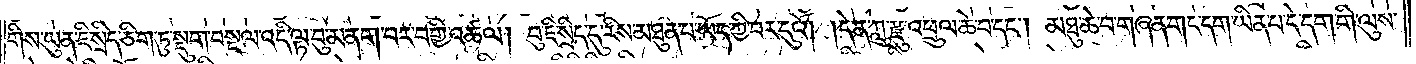གིས་ཡུན་ཇི་སྲིད་ཅིག་ཏུ་སྡུག་བསྔལ་འདི་ལྟ་བུ་མནག་པར་བགྱི་འཚལ། བུ་ཇི་སྲིད་དུ་རིས་མཐུན་པ་ཡོད་ཀྱི་བར་དུའོ། །དེ་ན་ཀླུ་རྫུ་འཕྲུལ་ཆེ་བ་དང༌། མཐུ་ཆེ་བ་གཞན་གང་དག་ཡིན་པ་དེ་དག་གི་ལུས་
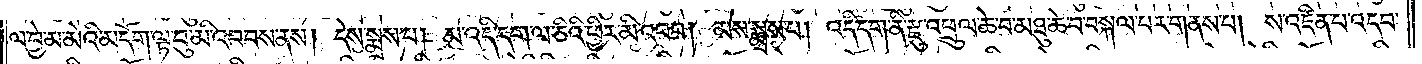ལ་བྱེ་མ་མེའི་མདོག་ལྟ་བུ་མི་འབབས་ནས། དེས་སྨྲས་པ། མ་འདི་དག་ལ་ཅིའི་ཕྱིར་མི་འབབ། མས་སྨྲས་པ། འདི་དག་ནི་རྫུ་འཕྲུལ་ཆེ་བ་མཐུ་ཆེ་བ་བསྐལ་པར་གནས་པ། ས་འཛིན་པ་འདབ་
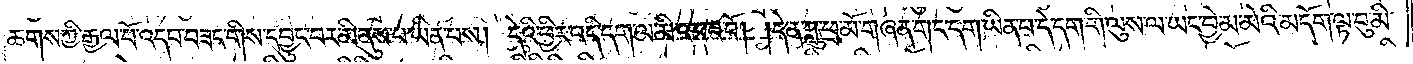ཆགས་ཀྱི་རྒྱལ་པོ་འདབ་བཟང་གིས་དབྱུང་བར་མི་ནུས་པ་ཡིན་པས། དེའི་ཕྱིར་འདི་དག་ལ་མི་འབབ་བོ། །དེ་ན་ཀླུ་ཕྲ་མོ་གཞན་གང་དག་ཡིན་པ་དེ་དག་གི་ལུས་ལ་ཡང་བྱེ་མ་མེའི་མདོག་ལྟ་བུ་མི་
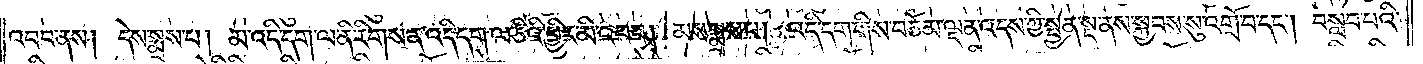འབབ་ནས། དེས་སྨྲས་པ། མ་འདི་དག་ལ་ནི་རིགས་ན་འདི་དག་ལ་ཅིའི་ཕྱིར་མི་འབབ། མས་སྨྲས་པ། འདི་དག་གིས་བཅོམ་ལྡན་འདས་ཀྱི་སྤྱན་སྔ་ནས་སྐྱབས་སུ་འགྲོ་བ་དང༌། བསླབ་པའི་
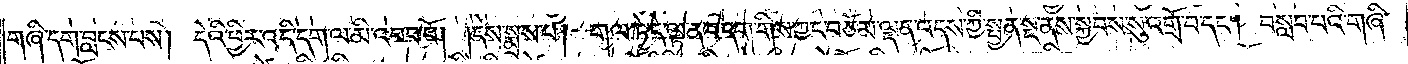གཞི་དག་བླངས་པས། དེའི་ཕྱིར་འདི་དག་ལ་མི་འབབ་བོ། །དེས་སྨྲས་པ། གལ་ཏེ་དེ་ལྟ་ན་བདག་གིས་ཀྱང་བཅོམ་ལྡན་འདས་ཀྱི་སྤྱན་སྔ་ནས་སྐྱབས་སུ་འགྲོ་བ་དང༌། བསླབ་པའི་གཞི་
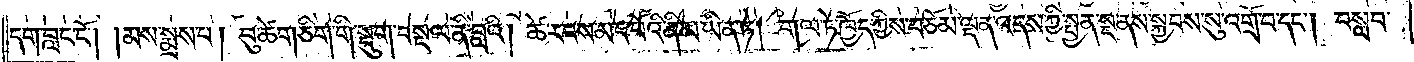དག་བླང་ངོ༌། །མས་སྨྲས་པ། བུ་ཚེ་གཅིག་གི་སྡུག་བསྔལ་ནི་བླའི། ཚེ་རབས་མང་པོའི་ནི་མ་ཡིན་ཏེ། གལ་ཏེ་ཁྱོད་ཀྱིས་བཅོམ་ལྡན་འདས་ཀྱི་སྤྱན་སྔ་ནས་སྐྱབས་སུ་འགྲོ་བ་དང༌། བསླབ་
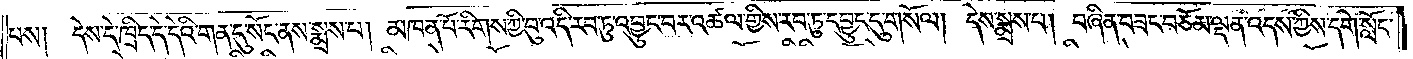པས། དེས་དེ་ཁྲིད་དེ་དེའི་གན་དུ་སོང་ནས་སྨྲས་པ། མཁན་པོ་རིགས་ཀྱི་བུ་འདི་རབ་ཏུ་འབྱུང་བར་འཚལ་གྱིས་རབ་ཏུ་དབྱུང་དུ་གསོལ། དེས་སྨྲས་པ། བཞིན་བཟང་བཅོམ་ལྡན་འདས་ཀྱིས་དགེ་སློང་
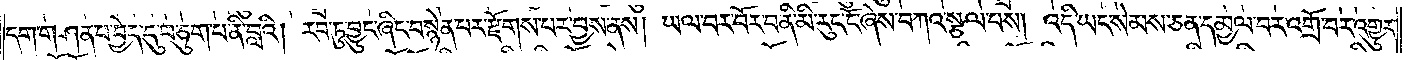དག་གཤན་པ་བྱེད་དུ་བཅུག་པ་ནི་བླའི། རབ་ཏུ་བྱུང་ཞིང་བསྙེན་པར་རྫོགས་པར་བྱས་ནས། ཡལ་བར་བོར་བ་ནི་མི་རུང་ངོ་ཞེས་བཀའ་སྩལ་པས། འདི་ཡང་སེམས་ཅན་དམྱལ་བར་འགྲོ་བར་འགྱུར་
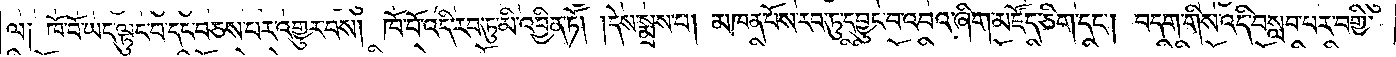ལ༑ ཁོ་བོ་ཡང་ལྟུང་བ་དང་བཅས་པར་འགྱུར་བས། ཁོ་བོ་འདི་རབ་ཏུ་མི་འབྱིན་ཏོ། །དེས་སྨྲས་པ། མཁན་པོས་རབ་ཏུ་དབྱུང་བ་འབའ་ཞིག་མཛོད་ཅིག་དང༌། བདག་གིས་འདི་བསླབ་པར་བགྱི་
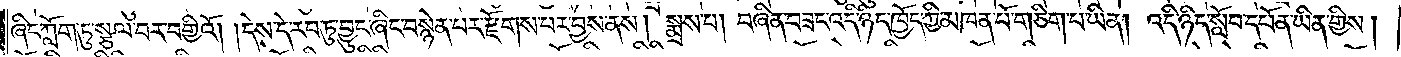ཞིང་ཀློག་ཏུ་སྩལ་བར་བགྱིའོ། །དེས་དེ་རབ་ཏུ་བྱུང་ཞིང་བསྙེན་པར་རྫོགས་པར་བྱས་ནས། སྨྲས་པ། བཞིན་བཟང་འདི་ཉིད་ཁྱོད་ཀྱི་མཁན་པོ་གཅིག་པ་ཡིན། འདི་ཉིད་སློབ་དཔོན་ཡིན་གྱིས།
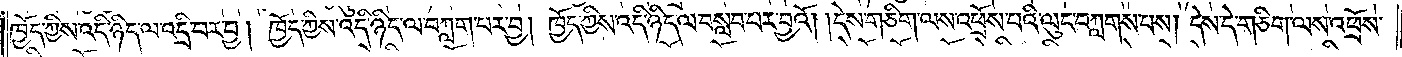ཁྱོད་ཀྱིས་འདི་ཉིད་ལ་འདྲི་བར་བྱ། ཁྱོད་ཀྱིས་འདི་ཉིད་ལ་བཀླག་པར་བྱ། ཁྱོད་ཀྱིས་འདི་ཉིད་ལ་བསླབ་པར་བྱའོ། །དེས་གཅིག་ལས་འཕྲོས་པའི་ལུང་བཀླགས་པས། དེས་དེ་གཅིག་ལས་འཕྲོས་
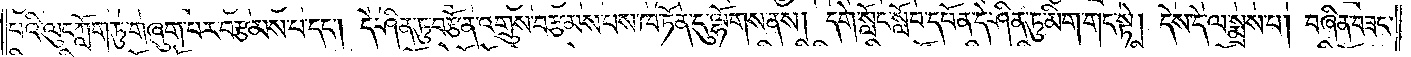པའི་ལུང་ཀློག་ཏུ་གཞུག་པར་བརྩམས་པ་དང༌། དེ་ཤིན་ཏུ་བརྩོན་འགྲུས་བརྩམས་པས་ཁ་ཏོན་དུ་ལྷོགས་ནས། དགེ་སློང་སློབ་དཔོན་དེ་ཤིན་ཏུ་མིག་གང་སྟེ། དེས་དེ་ལ་སྨྲས་པ། བཞིན་བཟང་
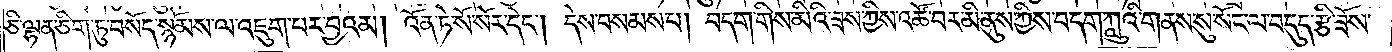ཅི་ལྷན་ཅིག་ཏུ་བསོད་སྙོམས་ལ་འཇུག་པར་བྱའམ། འོན་ཏེ་སོ་སོར་དེང༌། དེས་བསམས་པ། བདག་གིས་མིའི་ཟས་ཀྱིས་འཚོ་བར་མི་ནུས་ཀྱིས་བདག་ཀླུའི་གནས་སུ་སོང་ལ་བདུད་རྩི་ཟོས་
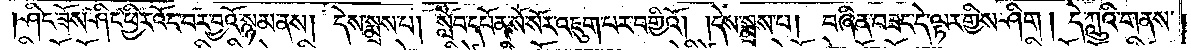ཤིང་ཟོས་ཤིང་ཕྱིར་འོང་བར་བྱའོ་སྙམ་ནས། དེས་སྨྲས་པ། སློབ་དཔོན་སོ་སོར་འཇུག་པར་བགྱིའོ། །དེས་སྨྲས་པ། བཞིན་བཟང་དེ་ལྟར་གྱིས་ཤིག ། དེ་ཀླུའི་གནས་
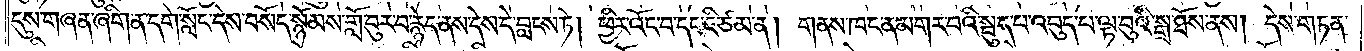དུས་གཞན་ཞིག་ན་དགེ་སློང་དེས་བསོད་སྙོམས་གློ་བུར་བ་རྙེད་ནས་དེས་དེ་བླངས་ཏེ། ཕྱིར་འོང་བ་དང་ཇི་ཙམ་ན། གནས་ཁང་ན་མགར་བའི་སྦུད་པ་འབུད་པ་ལྟ་བུའི་སྒྲ་ཐོས་ནས། དེས་གཏན་
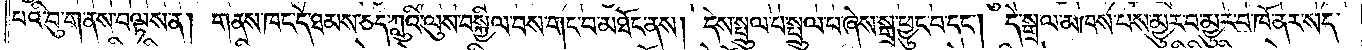པའི་བུ་གནས་བལྟས་ན། གནས་ཁང་དེ་ཐམས་ཅད་ཀླུའི་ལུས་བསྐྱིལ་བས་གང་བ་མཐོང་ནས། དེས་སྤྲུལ་པ་སྤྲུལ་པ་ཞེས་སྒྲ་ཕྱུང་བ་དང༌། དེ་སྒྲ་ལ་མཁས་པས་མྱུར་བ་མྱུར་བ་ཁོ་ནར་སད་
